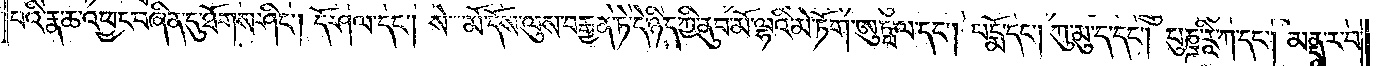པའི་རྣ་ཆ་འཕྱང་བཞིན་དུ་ཐོགས་ཤིང༌། དོ་ཤལ་དང༌། སེ་མོ་དོས་ལུས་བརྒྱན་ཏེ་དེ་ཉིད་ཀྱི་ནུབ་མོ་ལྷའི་མེ་ཏོག་ཨུཏྤལ་དང༌། པདྨོ་དང༌། ཀུ་མུ་ད་དང༌། པུཎྜ་རཱི་ཀ་དང༌། མནྡཱ་ར་བ་
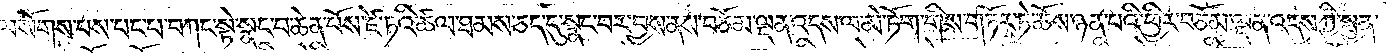ལ་སོགས་པས་པང་པ་བཀང་སྟེ་སྣང་བ་ཆེན་པོས་ཛེ་ཏའི་ཚལ་ཐམས་ཅད་དུ་སྣང་བར་བྱས་ནས་བཅོམ་ལྡན་འདས་ལ་མེ་ཏོག་གིས་གཏོར་ཏེ་ཆོས་ཉན་པའི་ཕྱིར་བཅོམ་ལྡན་འདས་ཀྱིས་སྤྱན་
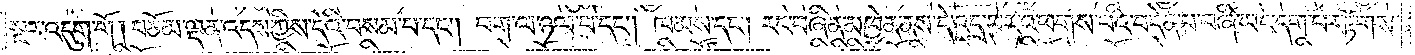སྔར་འདུག་གོ །བཅོམ་ལྡན་འདས་ཀྱིས་དེའི་བསམ་པ་དང༌། བག་ལ་ཉལ་བ་དང༌། ཁམས་དང༌། རང་བཞིན་མཁྱེན་ནས་དེ་འདྲ་བར་འཕགས་པའི་བདེན་པ་བཞི་ཡང་དག་པར་རྟོགས་
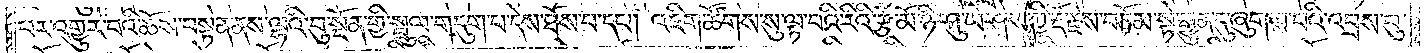པར་འགྱུར་བའི་ཆོས་བསྟན་ནས་ལྷའི་བུ་སྔོན་གྱི་སྦྲུལ་གདུག་པ་དེས་ཐོས་པ་དང༌། འཇིག་ཚོགས་སུ་ལྟ་བའི་རིའི་རྩེ་མོ་ཉི་ཤུ་ཡེ་ཤེས་ཀྱི་རྡོ་རྗེས་བཅོམ་སྟེ་རྒྱུན་དུ་ཞུགས་པའི་འབྲས་བུ་
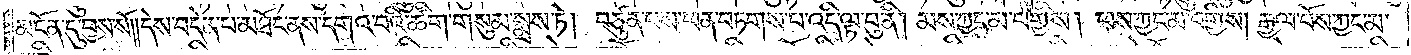མངོན་དུ་བྱས་སོ། །དེས་བདེན་པ་མཐོང་ནས་དགའ་བའི་ཚིག་གསུམ་སྨྲས་ཏེ། བཙུན་པས་ཕན་བཏགས་པ་འདི་ལྟ་བུ་ནི། མས་ཀྱང་མ་བགྱིས། ཕས་ཀྱང་མ་བགྱིས། རྒྱལ་པོས་ཀྱང་མ་
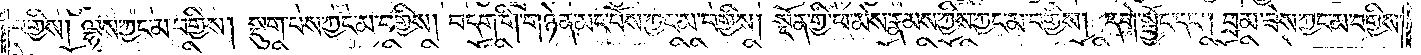བགྱིས། ལྷས་ཀྱང་མ་བགྱིས། སྡུག་པས་ཀྱང་མ་བགྱིས། བདག་གི་གཉེན་མང་པོས་ཀྱང་མ་བགྱིས། སྔོན་གྱི་ཕ་མེས་རྣམས་ཀྱིས་ཀྱང་མ་བགྱིས། དགེ་སྦྱོང་དང༌། བྲམ་ཟེས་ཀྱང་མ་བགྱིས་
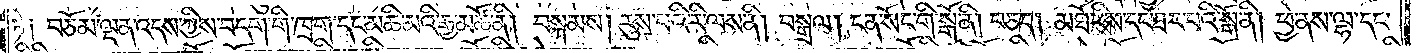ཏེ། བཅོམ་ལྡན་འདས་ཀྱིས་བདག་གི་ཁྲག་དང་མཆི་མའི་རྒྱ་མཚོ་ནི། བསྐམས། རུས་པའི་རི་ལས་ནི། བསྒྲལ། ངན་སོང་གི་སྒོ་ནི། བཅད། མཐོ་རིས་དང་ཐར་པའི་སྒོ་ནི། ཕྱེ་ནས་ལྷ་དང་
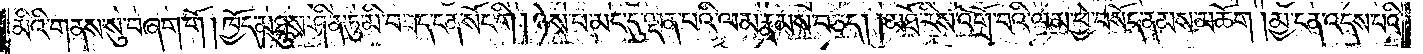མིའི་གནས་སུ་བཞག་གོ །ཁྱོད་མཐུས་ཤིན་ཏུ་མི་བཟད་ངན་སོང་གི། ཉེས་པ་མང་དུ་ལྡན་པའི་ལམ་རྣམས་བཅད། །མཐོ་རིས་འགྲོ་བའི་ལམ་ཕྱེ་བསོད་ནམས་མཆོག །མྱ་ངན་འདས་པའི་
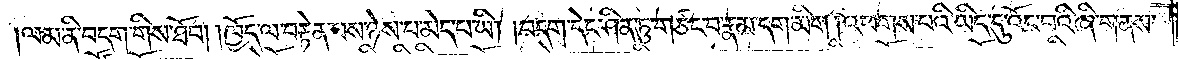ལམ་ནི་བདག་གིས་ཐོབ། །ཁྱོད་ལ་བརྟེན་པས་ཉེས་པ་མེད་པ་ཡི། །བདག་དེང་ཤིན་ཏུ་གཙང་བ་རྣམ་དག་མིག །འཕགས་པའི་ཡིད་དུ་འོང་བའི་ཞི་གནས་
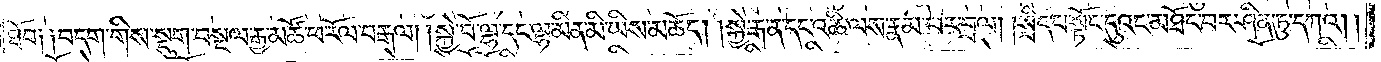ཐོབ༑ ༑བདག་གིས་སྡུག་བསྔལ་རྒྱ་མཚོ་ཕ་རོལ་བརྒལ། །སྐྱེ་བོ་ལྷ་དང་ལྷ་མིན་མི་ཡིས་མཆོད། །སྐྱེ་རྒ་ན་དང་འཆི་ལས་རྣམ་པར་བྲལ་།སྲིད་པ་སྟོང་དུའང་མཐོང་བར་ཤིན་ཏུ་དཀའ།
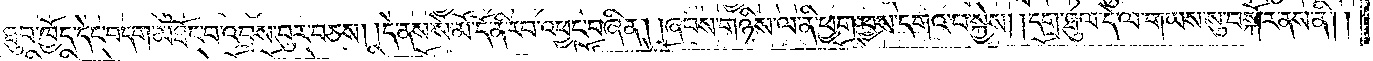ཐུབ་ཁྱོད་དེང་བདག་མཐོང་བ་འབྲས་བུར་བཅས། །དེ་ནས་སེ་མོ་དོ་ནི་རབ་འཕྱང་བཞིན། །ཞབས་གཉིས་ལ་ནི་ཕྱག་བྱས་དགའ་བ་སྐྱེས། །དགྲ་ཐུལ་དེ་ལ་གཡས་སུ་བསྐོར་ནས་ནི།
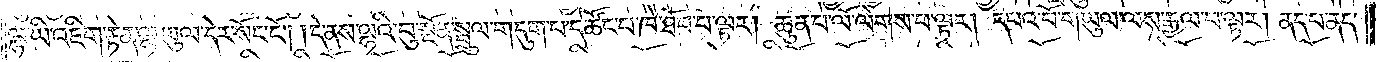ལྷ་ཡི་འཇིག་རྟེན་ལྷ་ཡུལ་དེར་སོང་ངོ༌། །དེ་ནས་ལྷའི་བུ་སྔོན་སྦྲུལ་གདུག་པ་དེ་ཚོང་པ་ཁེ་ཐོབ་པ་ལྟར། ཆུན་པ་ལོ་ལེགས་པ་ལྟར། དཔའ་བོ་གཡུལ་ལས་རྒྱལ་བ་ལྟར། ནད་པ་ནད་
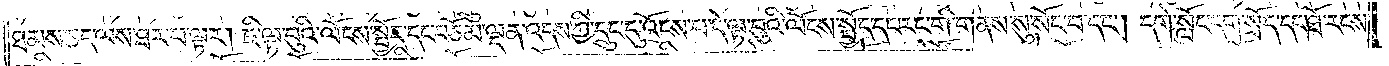ཐམས་ཅད་ལས་ཐར་པ་ལྟར། ཇི་ལྟ་བུའི་ལོངས་སྤྱོད་དང་བཅོམ་ལྡན་འདས་ཀྱི་དྲུང་དུ་འོངས་པ་དེ་ལྟ་བུའི་ལོངས་སྤྱོད་དང་རང་གི་གནས་སུ་སོང་བ་དང༌། དགེ་སློང་དག་སྲོད་དང་ཐོ་རངས་
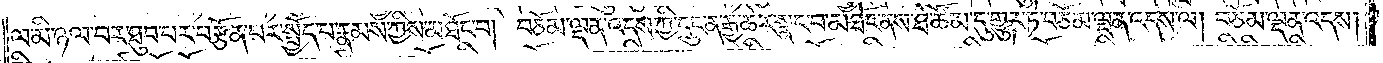ལ་མི་ཉལ་བར་ཐུབ་པར་བརྩོན་པར་སྤྱོད་པ་རྣམས་ཀྱིས་མཐོང་བ། བཅོམ་ལྡན་འདས་ཀྱི་དྲུང་ན་རྒྱ་ཆེར་སྣང་བ་མཐོང་ནས་ཐེ་ཚོམ་དུ་གྱུར་ཏེ་བཅོམ་ལྡན་འདས་ལ། བཅོམ་ལྡན་འདས།
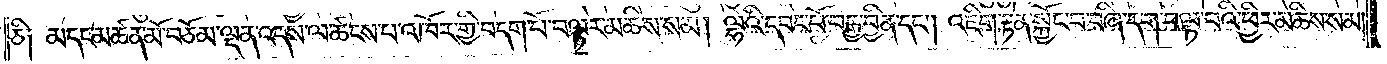ཅི༑ མདང་མཚན་མོ་བཅོམ་ལྡན་འདས་ལ་ཚངས་པ་འཁོར་གྱི་བདག་པོ་བལྟར་མཆིས་སམ། ལྷའི་དབང་པོ་བརྒྱ་བྱིན་དང༌། འཇིག་རྟེན་སྐྱོང་བ་བཞི་དག་བལྟ་བའི་ཕྱིར་མཆིས་སམ།
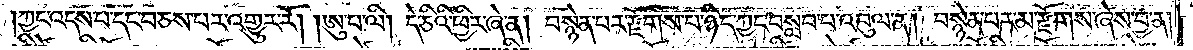ཀྱང་འདས་པ་དང་བཅས་པར་འགྱུར་རོ། །ཨུ་པ་ལི། དེ་ཅིའི་ཕྱིར་ཞེ་ན། བསྙེན་པར་རྫོགས་པ་ཉིད་ཀྱང་བསླབ་པ་འབུལ་ན། བསྙེན་པར་མ་རྫོགས་ཞེས་བྱ་ན།
